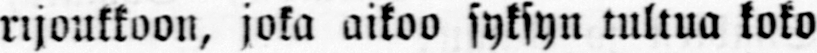rijoukkoon, joka aikoo syksyn tultua koko
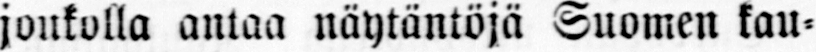joukolla antaa näytäntöjä Suomen kau-
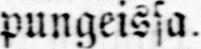pungeissa.
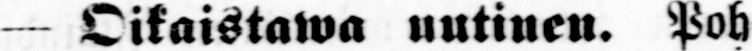— Aikaistawa uutinen. Poh-
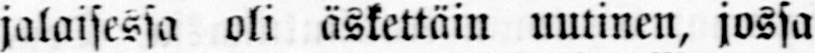jalaisessa oli äskettäin uutinen, jossa
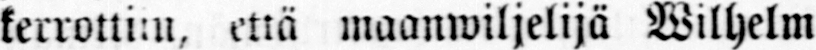kerrottiin, että maanwiljelijä Wilhelm
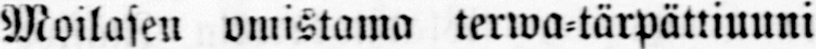Moilasen omistama terwa-tärpättiuuni
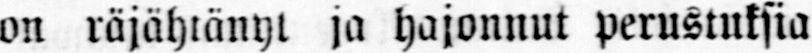on räjähtänyt ja hajonnut perustuksia
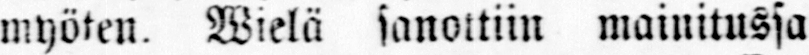myöten. Wielä sanottiin mainitussa
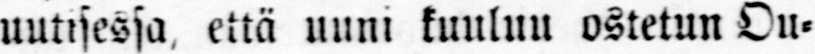uutisessa että uuni kuuluu ostetun Ou-
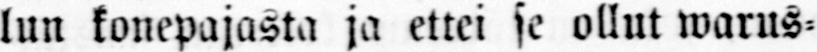lun konepajasta ja ettei se ollut warus-
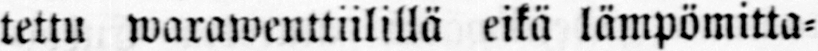tettu warawenttiilillä eikä lämpömitta-
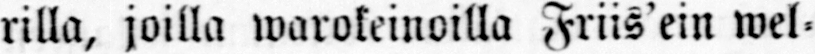rilla, joilla warokeinoilla Friis'ein wel-
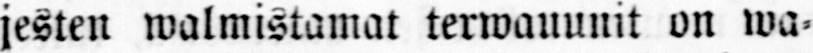jesten walmistamat terwauunit on wa-
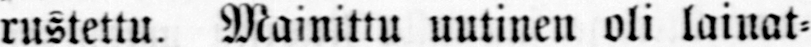rustettu. Mainittu uutinen oli lainat-
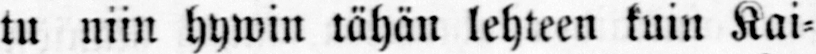tu ulin hywin tähän lehteen kuin Kai-
